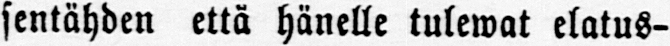sentähden että hänelle tulewat elatus-
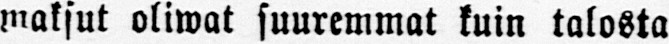maksut oliwat suuremmat kuin talosta
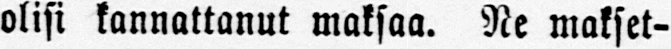olisi kannattanut maksaa. Ne makset-
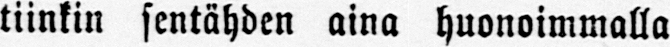tiinkin sentähden aina huonoimmalla
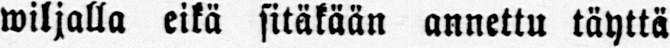wiljalla eikä sitäkään annettu täyttä
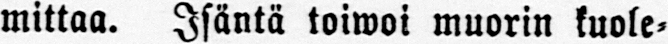mittaa. Isäntä toiwoi muorin kuole-
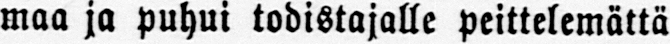maa ja puhui todistajalle peittelemättä
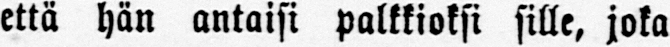että hän antaisi palkkioksi sille, joka
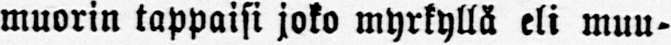muorin tappaisi joko myrkyllä eli muu-
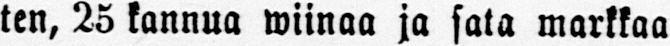ten, 25 kannua wiinaa ja sata markkaa
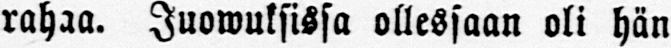rahaa. Juowuksissa ollessaan oli hän
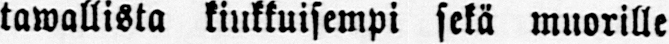tawallista kinkkuisempi sekä muorille
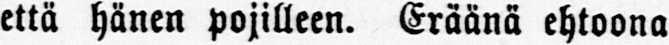että hänen pojilleen. Eräänä ehtoona
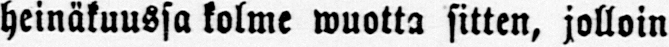heinäkuussa kolme wuotta sitten, jolloin
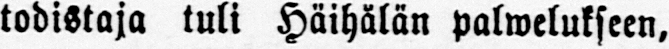todistaja tuli Häihälän palwelukseen,
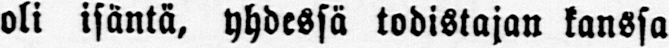oli isäntä, yhdessä todistajan kanssa
